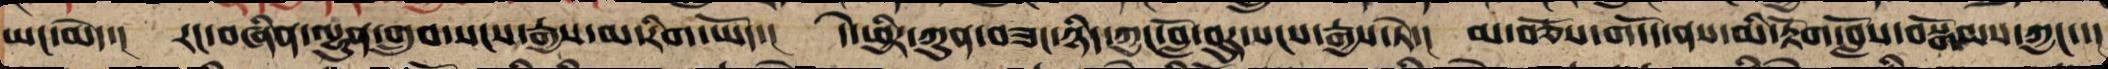ཡང་མེད་། རང་བཞིན་ལྷུན་གྲུབ་སངས་རྒྱས་མ་རིག་ཡོད་། དེ་ཕྱིར་ཀུན་བཟང་ཉིད་ཀྱང་གློ་བུར་སངས་རྒྱས་ཏེ། མ་བཅོས་གདོད་ནས་མི་རྟོག་བློས་བསྒོམས་ཀྱང་་།
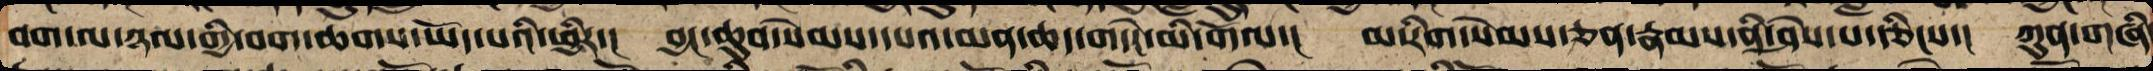བག་ལ་ཉལ་གྱི་བག་ཆགས་ཡོད་པའི་ཕྱིར་། བྱང་ཆུབ་སེམས་དཔའ་མན་ཆད་གདེང་མེད་གོལ་། མ་རིག་སེམས་ཅན་རྣམས་ནི་ཤེས་པ་རྩིང་། ཀུན་གཞི་
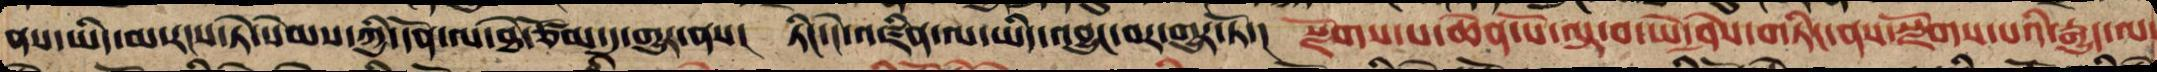ནས་ཡིད་མ་རངས་ཏེ་སེམས་ཀྱི་དོན་ལ་ཐེ་ཙོམ་དུ་གྱུར་ནས། ཏིང་ངེ་འཛིན་ལ་ཡིད་འབྱུང་བར་འགྱུར་ཏོ་། སྫོགས་པ་ཆེན་པོ་ལྟ་བ་ཡེ་ཤེས་གཏིང་ནས་སྫོགས་པའི་རྒྱུད་ལས་
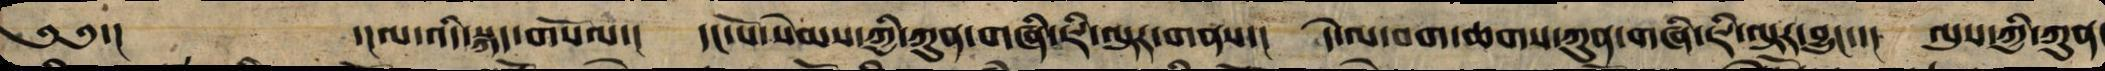༄༅་།  ་།ལ་འདི་སྐད་གསོལ་། དང་པོ་སེམས་ཀྱི་ཀུན་གཞི་ཇི་ལྟར་གནས་། དེ་ལས་བག་ཆགས་ཀུན་གཞི་ཇི་ལྟར་བྱུང་། ལུས་ཀྱི་ཀུན་
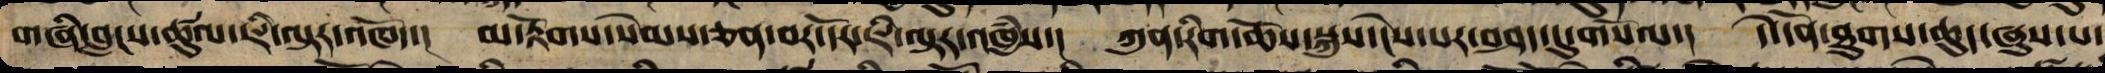གཞི་བླངས་ཚུལ་ཇི་ལྟར་འཁོར་། མ་རྟོགས་སེམས་ཅན་བར་དོར་ཇི་ལྟར་འཁྱཾས།  ཀུན་རིག་ཆོས་སྐུས་ངེས་པར་བཤད་དུ་གསོལ་། དེ་དོན་ཐུགས་ཆུད་ཞུས་པ་
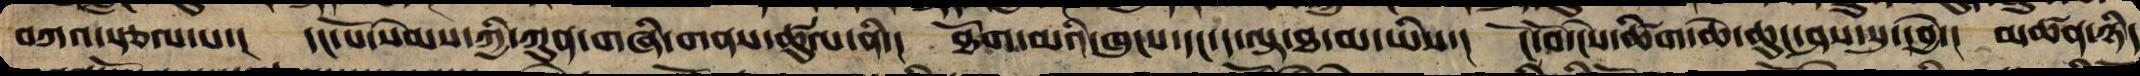བཀའ་སྩལ་པ་།  དང་པོ་སེམས་ཀྱི་ཀུན་གཞི་གནས་ཚུལ་ནི་། ཐོག་མའི་ཁུངས་དང་ད་ལྟ་ཐ་མ་ཡི་།  ངོ་བོ་ངེས་ཚིག་ཆེ་ཆུང་ཤས་སུ་དབྱེ་། མཚན་ཉིད་
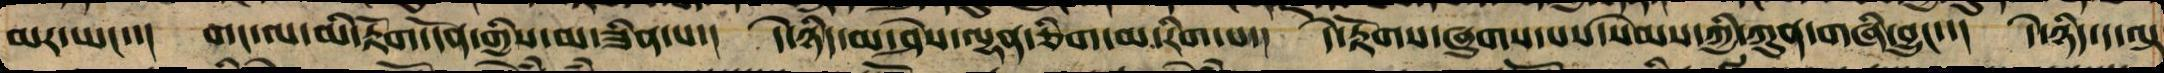མར་ཡང་། གང་ལ་མི་རྟོག་དོན་གྱིས་མ་ཟིན་པ།  དེ་ཉིད་མ་ཤེས་ལྷན་ཅིག་མ་རིག་པ་། དེར་རྟོག་ཞུགས་པས་སེམས་ཀྱི་ཀུན་གཞི་བྱུང་་། དེ་ཉིད་ད་ལྟ
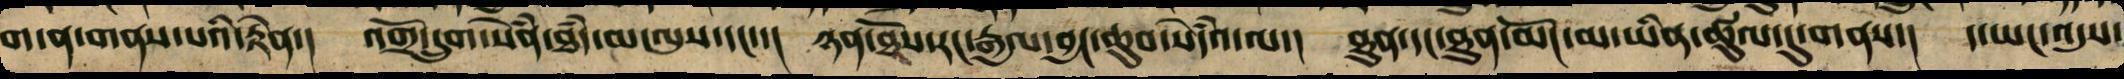ག་ན་གནས་པའི་རྟེན་། འགྲོ་དྲུག་སེཾས་ཅན་ཐཾད་མ་ལུས་དང་། ཉན་ཐོས་རང་རྒྱལ་བྱང་ཆུབ་སེདཾའ་ལ་། ཀུན་དང་ཐུན་མོང་མ་ཡིན་ཚུལ་དུ་གནས་།  ད་ཡང་འདུས་
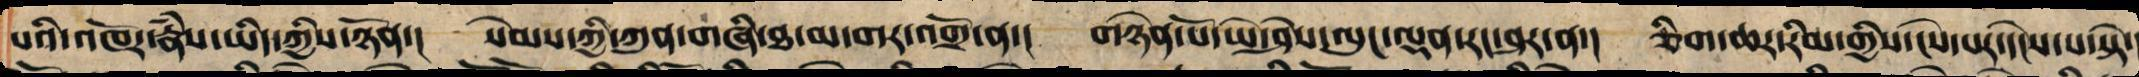པའི་འཁོར་རྣཾས་ཡིད་ཀྱིས་ཉོན་། སེམས་ཀྱི་ཀུན་གཞི་ཐ་མ་གར་འགྲོ་ན་། །གཉེན་པོ་ཡེ་ཤེས་ལུང་ལྡན་རང་ཤར་ནས་། ཅིག་ཅར་རིམ་གྱིས་ངེས་པར་དངེས་པ་སྟེ་
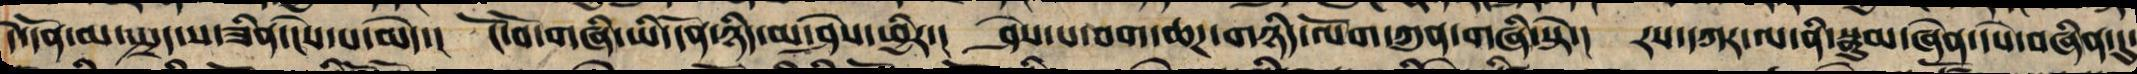དེ་དོན་མ་སྤྲད་ས་ཟིན་ངེས་པ་མེད་། ངོ་བོ་བཞི་ཡི་དོན་ཉིད་མ་ཤེས་ཕྱིར་། ཤེས་པ་བག་ཆགས་གཉིད་ལོག་ཀུན་གཞི་སྟེ་། རས་དཀར་ལ་ནི་སྣུམ་ཞེན་དཔེ་བཞིན་དུ་
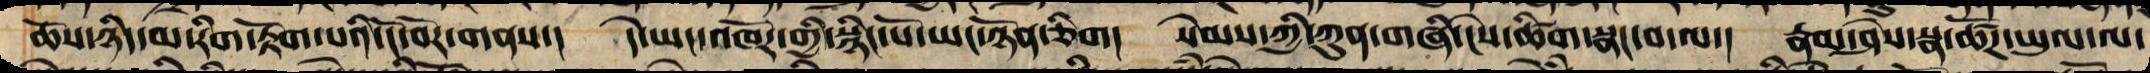ཆོས་ཉིད་མ་རིག་རྟོག་པའི་ངོ་བོར་གནས་། དེ་ཡང་འཁོར་གྱི་སྙིང་པོ་ཡང་ཉོན་ཅིག། སེམས་ཀྱི་ཀུན་གཞི་ངེས་ཚིག་སྣང་བ་ལ་། རྣམ་ཤེས་སྣ་ཚོཌ་ཡུལ་ལ་
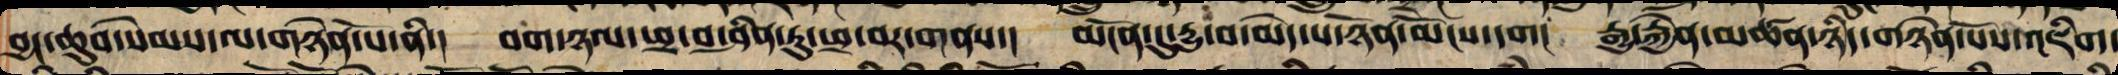བྱང་ཆུབ་སེམས་ལ་གཉེན་པོ་ནི་།  བག་ཉལ་ཕྲ་བ་ཤིན་ཏུ་ཕྲ་བར་གནས་། མངོན་དུ་རྒྱུ་བ་མེད་པ་ཉོན་མོངས་དག། རྒྱུ་རྐྱེན་མཚན་ཉིད་གཉེན་པོས་འཇིག་
